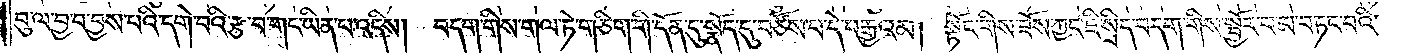བུ་ལ་བྱ་བ་བྱས་པའི་དགེ་བའི་རྩ་བ་གང་ཡིན་པ་འདིས། བདག་གིས་གལ་ཏེ་གཅིག་གི་དོན་དུ་སྣོད་དུ་བཙོས་པ་དེ་བརྒྱའམ། སྟོང་གིས་ཟོས་ཀྱང་ཇི་སྲིད་བདག་གིས་སྦྱོར་བ་མ་བཏང་བའི་
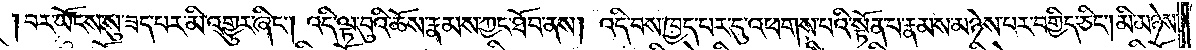བར་ཡོངས་སུ་ཟད་པར་མི་འགྱུར་ཞིང༌། འདི་ལྟ་བུའི་ཆོས་རྣམས་ཀྱང་ཐོབ་ནས། འདི་བས་ཁྱད་པར་དུ་འཕགས་པའི་སྟོན་པ་རྣམས་མཉེས་པར་བགྱིད་ཅིང༌། མི་མཉེས་
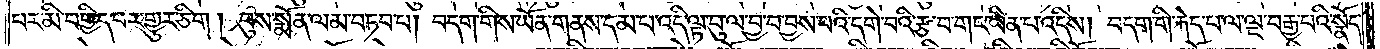པར་མི་བགྱིད་པར་གྱུར་ཅིག །བུས་སྨོན་ལམ་བཏབ་པ། བདག་གིས་ཡོན་གནས་དམ་པ་འདི་ལྟ་བུ་ལ་བྱ་བ་བྱས་པའི་དགེ་བའི་རྩ་བ་གང་ཡིན་པ་འདིས། བདག་གི་རྐེད་པ་ལ་ལྔ་བརྒྱ་པའི་སྣོད་
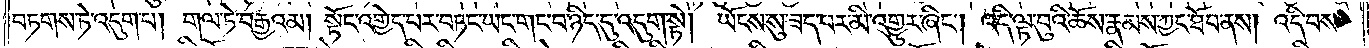བཏགས་ཏེ་འདུག་པ། གལ་ཏེ་བརྒྱའམ། སྟོང་འགྱེད་པར་བཏང་ཡང་གང་བ་ཉིད་དུ་འདུག་སྟེ། ཡོངས་སུ་ཟད་པར་མི་འགྱུར་ཞིང༌། འདི་ལྟ་བུའི་ཆོས་རྣམས་ཀྱང་ཐོབ་ནས། འདི་བས་
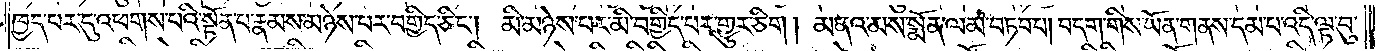ཁྱད་པར་དུ་འཕགས་པའི་སྟོན་པ་རྣམས་མཉེས་པར་བགྱིད་ཅིང༌། མི་མཉེས་པར་མི་བགྱིད་པར་གྱུར་ཅིག །མནའ་མས་སྨོན་ལམ་བཏབ་པ། བདག་གིས་ཡོན་གནས་དམ་པ་འདི་ལྟ་བུ་
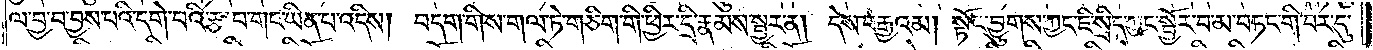ལ་བྱ་བ་བྱས་པའི་དགེ་བའི་རྩ་བ་གང་ཡིན་པ་འདིས། བདག་གིས་གལ་ཏེ་གཅིག་གི་ཕྱིར་དྲི་རྣམས་སྦྱར་ན། དེས་བརྒྱའམ། སྟོང་བྱུགས་ཀྱང་ཇི་སྲིད་ཀྱང་སྦྱོར་བ་མ་བཏང་གི་བར་དུ་
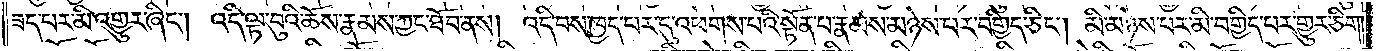ཟད་པར་མི་འགྱུར་ཞིང༌། འདི་ལྟ་བུའི་ཆོས་རྣམས་ཀྱང་ཐོབ་ནས། འདི་བས་ཁྱད་པར་དུ་འཕགས་པའི་སྟོན་པ་རྣམས་མཉེས་པར་བགྱིད་ཅིང༌། མི་མཉེས་པར་མི་བགྱིད་པར་གྱུར་ཅིག།
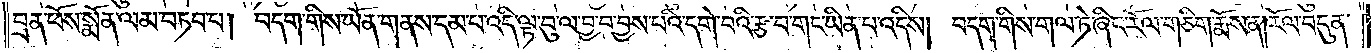བྲན་ཕོས་སྨོན་ལམ་བཏབ་པ། བདག་གིས་ཡོན་གནས་དམ་པ་འདི་ལྟ་བུ་ལ་བྱ་བ་བྱས་པའི་དགེ་བའི་རྩ་བ་གང་ཡིན་པ་འདིས། བདག་གིས་གལ་ཏེ་ཞིང་རོལ་གཅིག་རྨོས་ན། རོལ་བདུན་
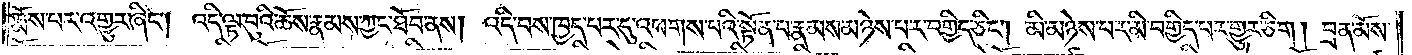རྨོས་པར་འགྱུར་ཞིང༌། འདི་ལྟ་བུའི་ཆོས་རྣམས་ཀྱང་ཐོབ་ནས། འདི་བས་ཁྱད་པར་དུ་འཕགས་པའི་སྟོན་པ་རྣམས་མཉེས་པར་བགྱིད་ཅིང༌། མི་མཉེས་པར་མི་བགྱིད་པར་གྱུར་ཅིག །བྲན་མོས་
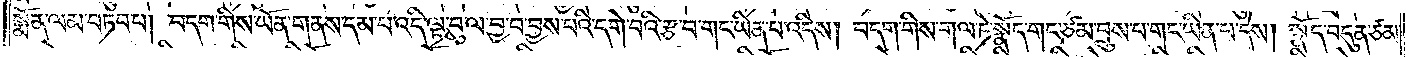སྨོན་ལམ་བཏབ་པ། བདག་གིས་ཡོན་གནས་དམ་པ་འདི་ལྟ་བུ་ལ་བྱ་བ་བྱས་པའི་དགེ་བའི་རྩ་བ་གང་ཡིན་པ་འདིས། བདག་གིས་གལ་ཏེ་སྣོད་གང་ཙམ་བྲུས་པ་གང་ཡིན་པ་དེས། སྣོད་བདུན་ཙམ་
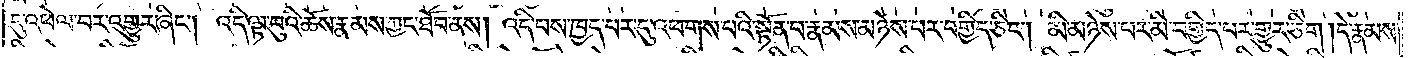དུ་འཕེལ་བར་འགྱུར་ཞིང༌། འདི་ལྟ་བུའི་ཆོས་རྣམས་ཀྱང་ཐོབ་ནས། འདི་བས་ཁྱད་པར་དུ་འཕགས་པའི་སྟོན་པ་རྣམས་མཉེས་པར་བགྱིད་ཅིང༌། མི་མཉེས་པར་མི་བགྱིད་པར་གྱུར་ཅིག། དེ་རྣམས་
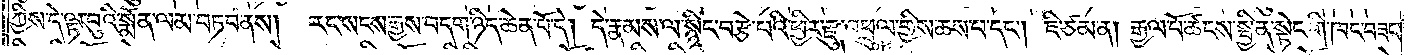ཀྱིས་དེ་ལྟ་བུའི་སྨོན་ལམ་བཏབ་ནས། རང་སངས་རྒྱས་བདག་ཉིད་ཆེན་པོ་དེ། དེ་རྣམས་ལ་སྙིང་བརྩེ་བའི་ཕྱིར་རྫུ་འཕྲུལ་གྱིས་ཆས་པ་དང༌། ཇི་ཙམ་ན། རྒྱལ་པོ་ཚངས་སྦྱིན་སྟེང་གི་ཁང་བཟང་
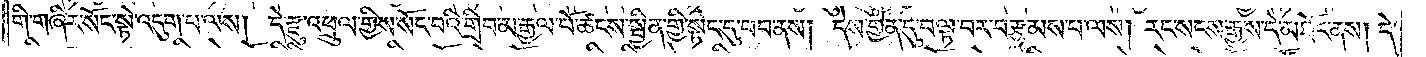གི་གཞིར་སོང་སྟེ་འདུག་པ་ལས། དེ་རྫུ་འཕྲུལ་གྱིས་སོང་བའི་གྲིབ་མ་རྒྱལ་པོ་ཚངས་སྦྱིན་གྱི་སྟེང་དུ་བབ་ནས། དེས་གྱེན་དུ་བལྟ་བར་བརྩམས་པ་ལས། རང་སངས་རྒྱས་དེ་མཐོང་ནས། དེ་
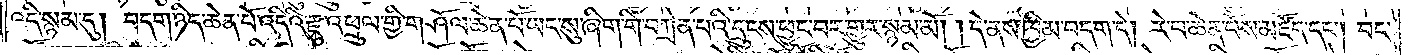འདི་སྙམ་དུ། བདག་ཉིད་ཆེན་པོ་འདིའི་རྫུ་འཕྲུལ་གྱི་གཤོལ་ཆེན་པོས་ཡང་སུ་ཞིག་གི་བཀྲེན་པའི་དྲུངས་ཕྱུང་བར་གྱུར་སྙམ་མོ། །དེ་ནས་ཁྱིམ་བདག་དེ། རེ་བ་ཆེན་པོས་མཛོད་དང༌། བང་
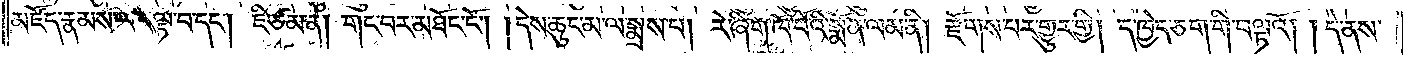མཛོད་རྣམས་ལ་བལྟ་བ་དང༌། ཇི་ཙམ་ན། གང་བར་མཐོང་ངོ༌། །དེས་ཆུང་མ་ལ་སྨྲས་པ། རེ་ཞིག་ཁོ་བོའི་སྨོན་ལམ་ནི། རྫོགས་པར་གྱུར་གྱི། ད་ཁྱེད་ཅག་གི་བལྟའོ། །དེ་ནས་
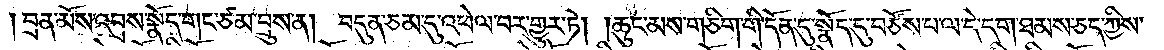བྲན་མོས་འབྲས་སྣོད་གང་ཙམ་བྲུས་ན། བདུན་ཅམ་དུ་འཕེལ་བར་གྱུར་ཏེ། །ཆུང་མས་གཅིག་གི་དོན་དུ་སྣོད་དུ་བཙོས་པ་ལ་དེ་དག་ཐམས་ཅད་ཀྱིས་
